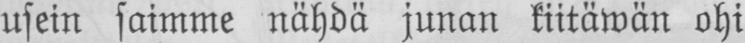usein saimme nähdä junan kiitäwän ohi
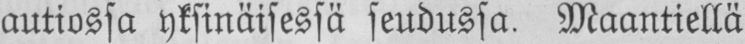autiossa yksinäisessä seudussa. Maantiellä
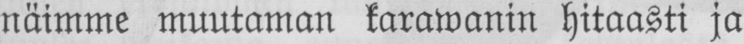näimme muutaman karawanin hitaasti ja
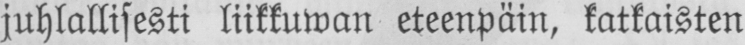juhlallisesti liikkuwan eteenpäin, katkaisten
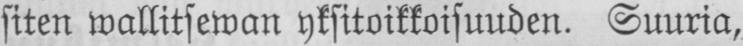siten wallitsewan yksitoikkoisuuden. Suuria,
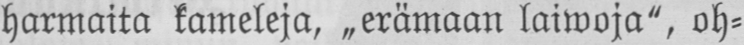harmaita kameleja, „erämaan laiwoja", oh-
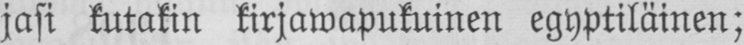jasi kutakin kirjawapukuinen egyptiläinen;
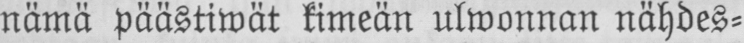nämä päästiwät kimeän ulwonnan nähdes-
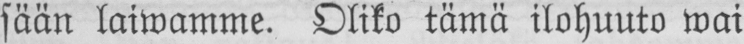sään laiwamme. Oliko tämä ilohuuto wai
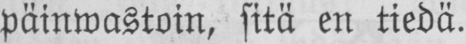päinwastoin, sitä en tiedä.
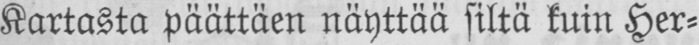Kartasta päättäen näyttää siltä kuin Her-
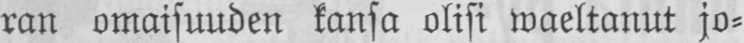ran omaisuuden kansa olisi waeltanut jo-
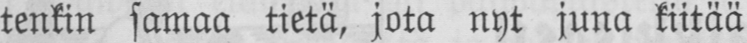tenkin samaa tietä, jota nyt juna kiitää
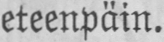eteenpäin.
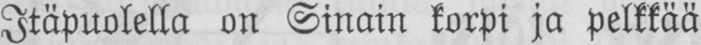Itäpuolella on Sinain korpi ja pelkkää
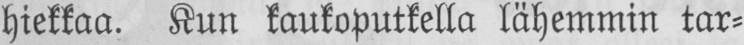hiekkaa. Kun kaukoputkella lähemmin tar-
